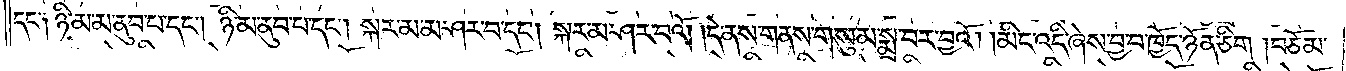དང་༑ ཉི་མ་མ་ནུབ་པ་དང༌། ཉི་མ་ནུབ་པ་དང༌། སྐར་མ་མ་ཤར་བ་དང༌། སྐར་མ་ཤར་བའོ། །དེ་ནས་གནས་གསུམ་སྨྲ་བར་བྱའོ། །མིང་འདི་ཞེས་བྱ་བ་ཁྱོད་ཉོན་ཅིག །བཅོམ་
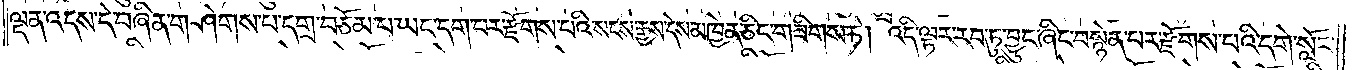ལྡན་འདས་དེ་བཞིན་གཤེགས་པ་དགྲ་བཅོམ་པ་ཡང་དག་པར་རྫོགས་པའི་སངས་རྒྱས་དེས་མཁྱེན་ཅིང་གཟིགས་ཏེ། འདི་ལྟར་རབ་ཏུ་བྱུང་ཞིང་བསྙེན་པར་རྫོགས་པའི་དགེ་སློང་
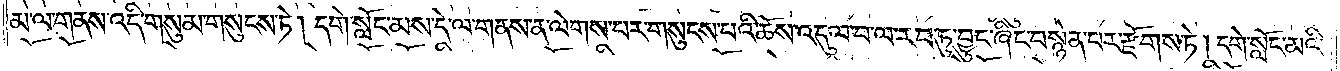མ་ལ་གནས་འདི་གསུམ་གསུངས་ཏེ། དགེ་སློང་མས་དེ་ལ་གནས་ན་ལེགས་པར་གསུངས་པའི་ཆོས་འདུལ་བ་ལ་རབ་ཏུ་བྱུང་ཞིང་བསྙེན་པར་རྫོགས་ཏེ། དགེ་སློང་མའི་
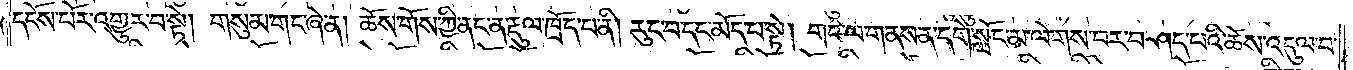དངོས་པོར་འགྱུར་བ་སྟེ། གསུམ་གང་ཞེ་ན། ཆོས་གོས་ཀྱི་ནང་ན་རྡུལ་ཁྲོད་པ་ནི། རུང་བ་དང་མོད་པ་སྟེ། གང་ལ་གནས་ན་དགེ་སློང་མ་ལེགས་པར་བཤད་པའི་ཆོས་འདུལ་བ་
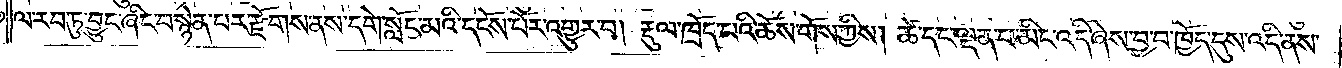ལ་རབ་ཏུ་བྱུང་ཞིང་བསྙེན་པར་རྫོགས་ནས་དགེ་སློང་མའི་དངོས་པོར་འགྱུར་བ། རྡུལ་ཁྲོད་པའི་ཆོས་གོས་ཀྱིས། ཚེ་དང་ལྡན་པ་མིང་འདི་ཞེས་བྱ་བ་ཁྱོད་དུས་འདི་ནས་
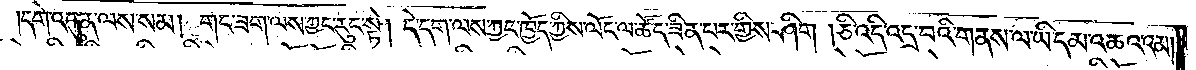།དགེ་འདུན་ལས་སམ། གང་ཟག་ལས་ཀྱང་རུང་སྟེ། དེ་དག་ལས་ཀྱང་ཁྱོད་ཀྱིས་ལོང་ལ་ཚོད་ཟིན་པར་གྱིས་ཤིག །ཅི་འདི་འདྲ་བའི་གནས་ལ་ཡི་དམ་འཆའ་འམ།
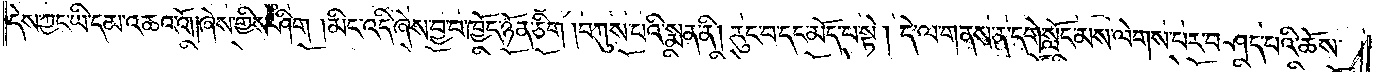དེས་ཀྱང་ཡི་དམ་འཆའ་འོ། །ཞེས་གྱིས་ཤིག །མིང་འདི་ཞེས་བྱ་བ་ཁྱོད་ཉོན་ཅིག །བཀུས་པའི་སྨན་ནི། རུང་བ་དང་མོད་པ་སྟེ། དེ་ལ་གནས་ན་དགེ་སློང་མས་ལེགས་པར་བཤད་པའི་ཆོས་
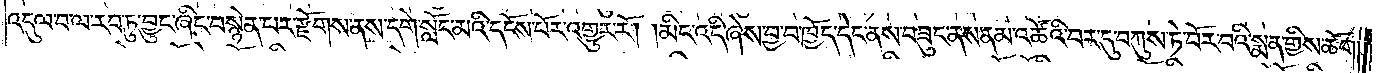འདུལ་བ་ལ་རབ་ཏུ་བྱུང་ཞིང་བསྙེན་པར་རྫོགས་ནས་དགེ་སློང་མའི་དངོས་པོར་འགྱུར་རོ། །མིང་འདི་ཞེས་བྱ་བ་ཁྱོད་དེང་ནས་བཟུང་ནས་ནམ་འཚོའི་བར་དུ་བཀུས་ཏེ་བོར་བའི་སྨན་གྱིས་ཆོག་
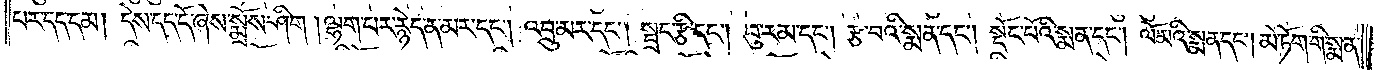པར་དད་དམ། དེས་དད་དོ་ཞེས་སྨྲོས་ཤིག །ལྷག་པར་རྙེད་ན་མར་དང༌། འབྲུ་མར་དང༌། སྦྲང་རྩི་དང༌། བུ་རམ་དང༌། རྩ་བའི་སྨན་དང༌། སྡོང་པོའི་སྨན་དང༌། ལོ་མའི་སྨན་དང༌། མེ་ཏོག་གི་སྨན་
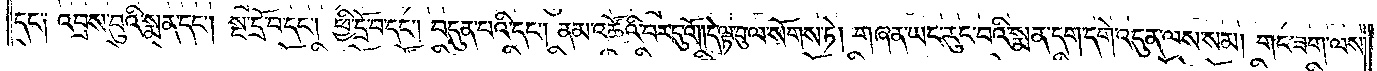དང་༑ འབྲས་བུའི་སྨན་དང༌། སྔ་དྲོ་བ་དང༌། ཕྱི་དྲོ་བ་དང༌། བདུན་པའི་དང༌། ནམ་འཚོའི་བར་དུའོ། །དེ་ལྟ་བུ་ལ་སོགས་ཏེ། གཞན་ཡང་རུང་བའི་སྨན་དག་དགེ་འདུན་ལས་སམ། གང་ཟག་ལས་
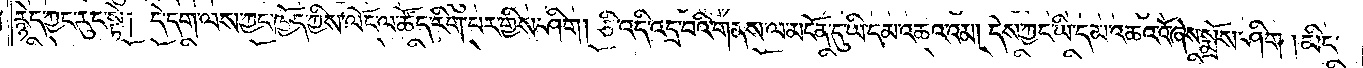རྙེད་ཀྱང་རུང་སྟེ། དེ་དག་ལས་ཀྱང་ཁྱོད་ཀྱིས་ལོང་ལ་ཚོད་རིག་པར་གྱིས་ཤིག །ཅི་འདི་འདྲ་བའི་གནས་ལ་མངོན་དུ་ཡི་དམ་འཆའ་འམ། དེས་ཀྱང་ཡི་དམ་འཆའ་འོ་ཞེས་སྨྲོས་ཤིག །མིང་
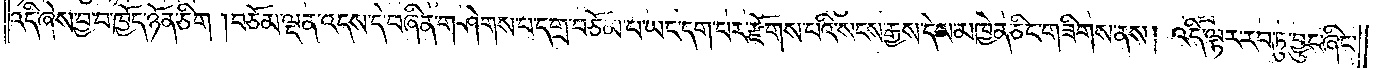འདི་ཞེས་བྱ་བ་ཁྱོད་ཉོན་ཅིག །བཅོམ་ལྡན་འདས་དེ་བཞིན་གཤེགས་པ་དགྲ་བཅོམ་པ་ཡང་དག་པར་རྫོགས་པའི་སངས་རྒྱས་དེས་མཁྱེན་ཅིང་གཟིགས་ནས། འདི་ལྟར་རབ་ཏུ་བྱུང་ཞིང་
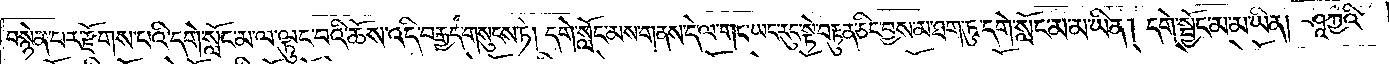བསྙེན་པར་རྫོགས་པའི་དགེ་སློང་མ་ལ་ལྟུང་བའི་ཆོས་འདི་བརྒྱད་གསུངས་ཏེ། དགེ་སློང་མས་གནས་དེ་ལ་གང་ཡང་རུང་སྟེ་བརྟུན་ཅིང་བྱས་མ་ཐག་ཏུ་དགེ་སློང་མ་མ་ཡིན། དགེ་སྦྱོང་མ་མ་ཡིན། ཤཱཀྱའི་
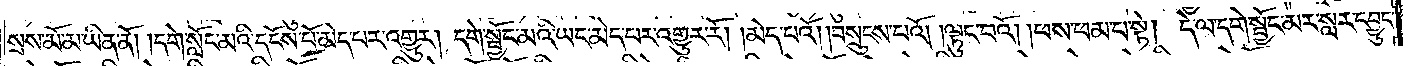སྲས་མོ་མ་ཡིན་ནོ། །དགེ་སློང་མའི་དངོས་པོ་མེད་པར་འགྱུར། དགེ་སྦྱོང་མའི་ཡང་མེད་པར་འགྱུར་རོ། །མེད་པའོ། །བསྲུངས་པའོ། །ལྟུང་བའོ། །ཕས་ཕམ་པ་སྟེ། དེ་ལ་དགེ་སྦྱོང་མར་སླར་དབྱུང་
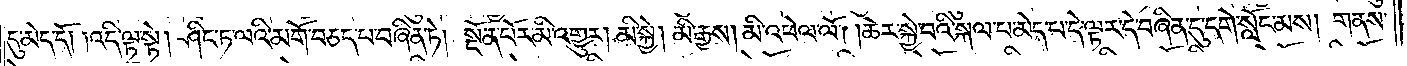དུ་མེད་དོ། །འདི་ལྟ་སྟེ། ཤིང་ཏ་ལའི་མགོ་བཅད་པ་བཞིན་ཏེ། སྔོན་པོར་མི་འགྱུར། མི་སྐྱེ། མི་རྒྱས། མི་འཕེལ་ལོ། །ཆེར་སྐྱེ་བའི་སྐལ་པ་མེད་པ་དེ་ལྟར་དེ་བཞིན་དུ་དགེ་སློང་མས། གནས་
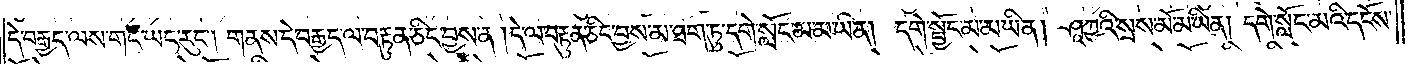དེ་བརྒྱད་ལས་གང་ཡང་རུང༌། གནས་དེ་བརྒྱད་ལ་བརྟུན་ཅིང་བྱས་ན། དེ་ལ་བརྟུན་ཅིང་བྱས་མ་ཐག་ཏུ་དགེ་སློང་མ་མ་ཡིན། དགེ་སྦྱོང་མ་མ་ཡིན། ཤཱཀྱའི་སྲས་མོ་མ་ཡིན། དགེ་སློང་མའི་དངོས་
